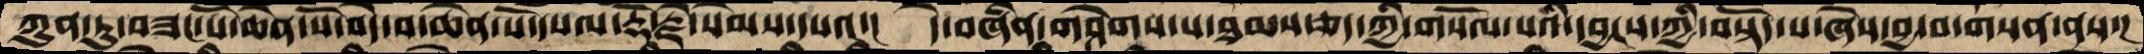ཀུན་ཏུ་བཟང་པོ་ཆེན་པོ་བདེ་བ་ཆེན་པོ་དཔལ་རྡོ་རྗེ་སེམས་དཔའ་།།  དེ་བཞིན་གཤེགས་པ་ཐམས་ཅད་ཀྱི་གསོལ་པའི་དབྱངས་ཀྱི་བསྟོད་པ་ཞེས་བྱ་བ་གསན་ནས་།
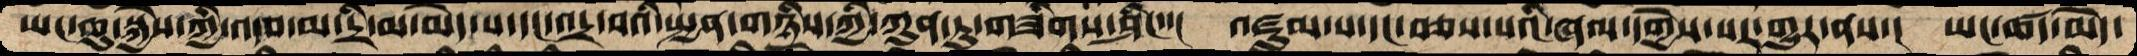ཡང་ཆུ་སྐྱེས་ཀྱི་འདབ་མ་དྲི་མ་མེད་པ་དང་འདྲ་བའི་སྤྱན་གཉིས་ཀྱི་ཀུན་ཏུ་གཟིགས་ཤིང་་།   འཛུམ་པ་དང་བཅས་པའི་ཞལ་དགྱེས་པར་གྱུར་ནས་།  ཡང་ཚད་མེད་
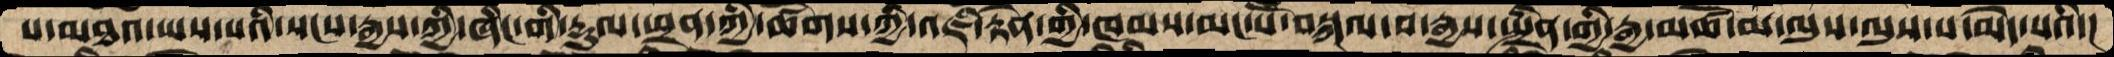པ་མཐའ་ཡས་པའི་སངས་རྒྱས་ཀྱི་ཞིང་གི་རྡུལ་ཕྲན་གྱི་ཚོགས་ཀྱི་འཇི་རྟེན་གྱི་ཁམས་མང་པོ་བསྐལ་བ་རྒྱས་སྤྲིན་གྱི་རྒྱ་མཚོ་མ་ལུས་ལུས་པ་མེད་པའི་།
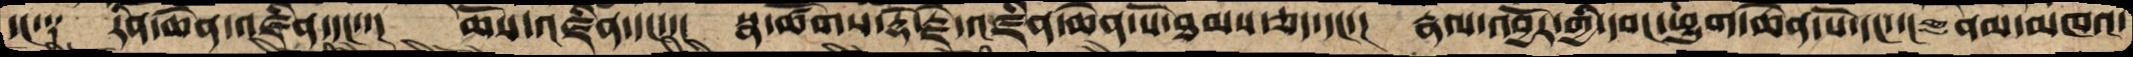དང་༑   རིན་ཆེན་འཛིན་དང་་།  ཆོས་འཛིན་དང་་།  སྣ་ཚོགས་རྡོ་རྗེ་འཛིན་ཆེན་པོ་ཐམས་ཅད་དང་།  རྣལ་འབྱོར་གྱི་དབང་ཕྱུག་ཆེན་པོ་དང་་།  ནམ་མཁའ་
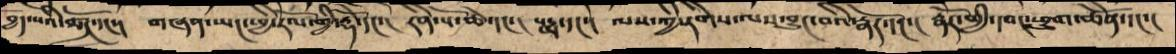བྱེད་པའི་ཚོཌ་དང་།  གཞན་ཡང་ཕྱི་རོལ་གྱི་རྡོེ་དང་།  རིན་པོ་ཆེ་དང་།  པདྨ་དང་།  ལས་ཀྱི་རིགས་ལས་བྱུང་བའི་རྣོར་དང་།  རྣོར་གྱི་དབང་ཕྱུག་ཆེནོ་དང་།
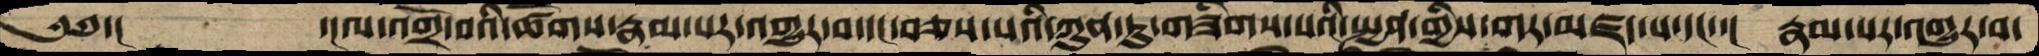༄༅་།          ་།ལ་འགྲོ་བའི་ཚོགས་རྣམ་པར་འགྱུར་བ་དང་བཅས་པའི་ཀུན་ཏུ་གཟིགས་པའི་སྤྱན་གྱིས་གར་མཛད་པ་དང་།  རྣམ་པར་འགྱུར་བ་
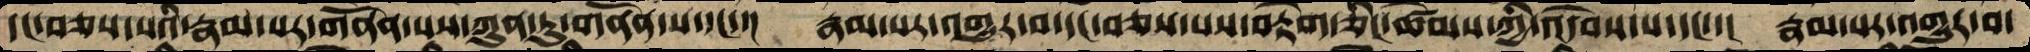དང་བཅས་པའི་རྣམ་པར་གནོན་པས་ཀུན་ཏུ་གནོན་པ་དང་་།  རྣམ་པར་འགྱུར་བ་དང་བཅས་པས་བརྟེག་ཅིང་ཚེམས་ཀྱི་འདེབས་པ་དང་་།  རྣམ་པར་འགྱུར་བ་
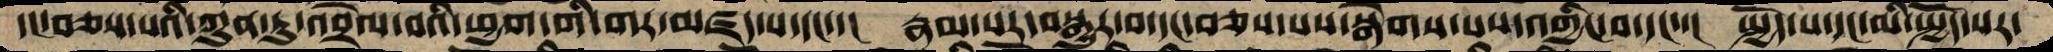དང་བཅས་པའི་ཀུན་ཏུ་འབྲེལ་བའི་ཕྱག་གི་གར་མཛད་པ་དང་་།  རྣམ་པར་བསྒྱུར་བ་དང་བཅས་པས་སྒེགས་པས་འགྱིང་བ་དང་་།  སྤྱོད་པ་དང་མི་སྤྱོད་པར་
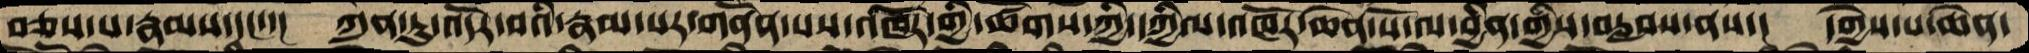བཅས་པ་རྣམས་དང་་།  ཀུན་ཏུ་འདོར་བའི་རྣམ་པར་གནོན་པས་འཁོར་གྱི་ཚོགས་ཀྱི་དཀྱིལ་འཁོར་ཆེན་པོ་ལ་བྱིན་གྱིས་བརླབས་ནས་།  དགྱེས་པ་ཆེན་
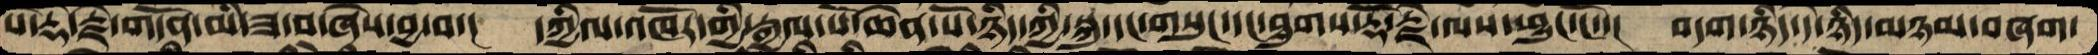པོ་རྡོ་རྗེ་གདོན་མི་ཟ་བ་ཞེས་བྱ་བ་།  དཀྱིལ་འཁོར་གྱི་རྒྱལ་པོ་ཆེན་པོ་ཉིད་ཀྱི་སྐུ་དང་གསུང་དང་ཐུགས་རྡོ་རྗེ་ལས་ཕྱུང་ངོ་་།  བདག་ཉིད་དེ་ཉིད་མཉམ་བཞག་
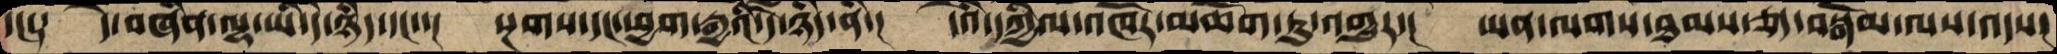དང་།  དེ་བཞིན་ལྷ་ཡི་དེ་ཉིད་དང་་།   སྔགས་དང་ཕྱག་རྒྱའི་དེ་ཉིད་ནི་།  དེའི་དཀྱིལ་འཁོར་མཆོག་ཏུ་འགྱུར་།  ཡན་ལག་ཐམས་ཅད་བསྒོམ་ལས་འདས།
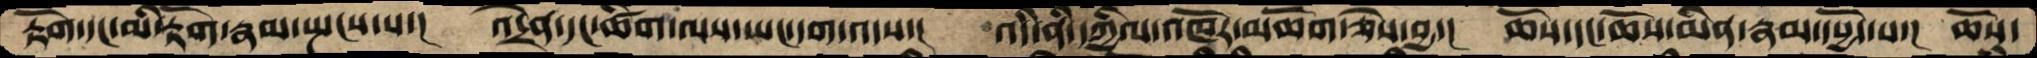རྟོག་དང་མི་རྟོག་རྣམ་སྤངས་པ་།  འདྲེན་དང་ཚིག་ལས་ཡང་དག་འདས་།  འདི་ནི་དཀྱིལ་འཁོར་མཆོག་ཅེས་བྱ་།  ཆོས་དང་ཆོས་མིན་རྣམ་དཔྱོད་པ་།  ཆོས་
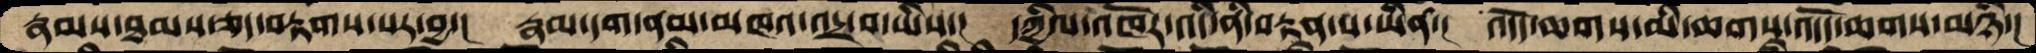རྣམས་ཐམས་ཅད་བརྟགས་པར་བྱ་།  རྣམ་དག་ནམ་མཁའ་འདྲ་བ་ཡིས་།  དཀྱིལ་འཁོར་འདི་ནི་བརྟན་པ་ཡིན་།  འདོད་ཆགས་མི་ཆགས་འདོད་ཆགས་མཉཾ་།
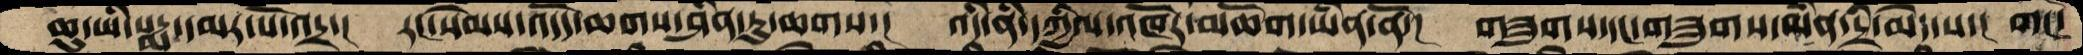ཆུ་ཡི་པདྨ་དམར་པོ་འདྲ་།  རང་སམེས་འདོད་ཆགས་ཤིན་ཏུ་ཆགས་།   འདི་ནི་དཀྱིལ་འཁོར་མཆོག་ཡིན་ནོ་།  གཟུགས་དང་གཟུགས་མིན་དྲི་མེད་པ་།  གང་
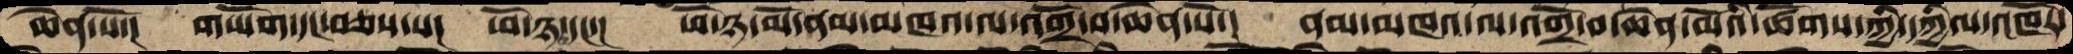ཆེན་པོ་།  གཡོག་དང་བཅས་པ།  ཕོ་ཉ་དང་།  ཕོ་ཉ་མོ་ནམ་མཁའ་ལ་འགྲོ་བ་ཆེན་པོ་།  ནམ་མཁའ་ལ་འགྲོ་བ་ཆེན་མོའི་ཚོགས་ཀྱི་དཀྱིལ་འཁོར་
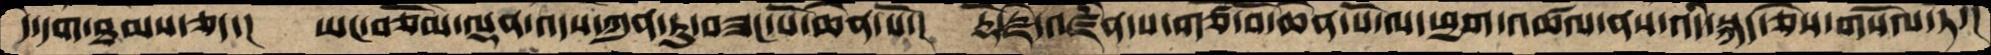དེ་དག་ཐམས་ཅད་།  ཡང་བཅོམ་ལྡན་འདས་ཀུན་ཏུ་བཟང་པོ་ཆེན་པོ་།  རྡོ་རྗེ་འཛིན་པ་གཙོ་བོ་ཆེན་པོ་ལ་ཕྱག་འཚལ་ནས་འདི་སྐད་ཅེས་གསོལ་ཏོ་།
